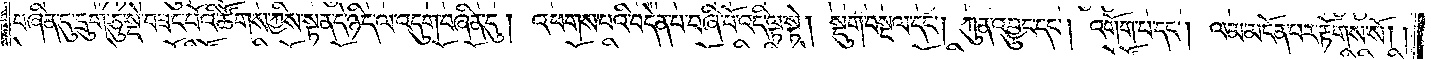བཞིན་དུ་དྲུག་ཅུ་སྡེ་བཟང་པོའི་ཚོགས་ཀྱིས་སྟན་དེ་ཉིད་ལ་འདུག་བཞིན་དུ། འཕགས་པའི་བདེན་པ་བཞི་པོ་འདི་ལྟ་སྟེ། སྡུག་བསྔལ་དང༌། ཀུན་འབྱུང་དང༌། འགོག་པ་དང༌། ལམ་མངོན་པར་རྟོགས་སོ། །
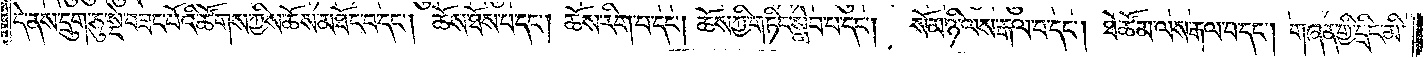དེ་ནས་དྲུག་ཅུ་སྡེ་བཟང་པོའི་ཚོགས་ཀྱིས་ཆོས་མཐོང་བ་དང༌། ཆོས་ཐོས་པ་དང༌། ཆོས་རིག་པ་དང༌། ཆོས་ཀྱི་གཏིང་སླེབ་པ་དང༌།  སོམ་ཉི་ལས་རྒལ་བ་དང༌། ཐེ་ཚོམ་ལས་རྒལ་བ་དང༌། གཞན་གྱི་དྲིང་མི་
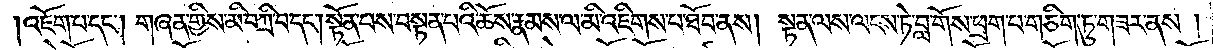འཇོག་པ་དང༌། གཞན་གྱིས་མི་བཀྲི་བ་དང༌། སྟོན་པས་བསྟན་པའི་ཆོས་རྣམས་ལ་མི་འཇིགས་པ་ཐོབ་ནས། སྟན་ལས་ལངས་ཏེ་བླ་གོས་ཕྲག་པ་གཅིག་ཏུ་གཟར་ནས།
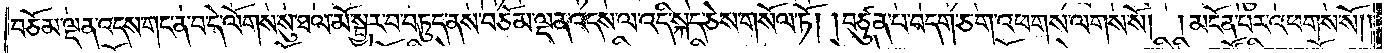བཅོམ་ལྡན་འདས་གང་ན་བ་དེ་ལོགས་སུ་ཐལ་མོ་སྦྱར་བ་བཏུད་ནས་བཅོམ་ལྡན་འདས་ལ་འདི་སྐད་ཅེས་གསོལ་ཏོ། །བཙུན་པ་བདག་ཅག་འཕགས་ལགས་སོ། །མངོན་པར་འཕགས་སོ༎
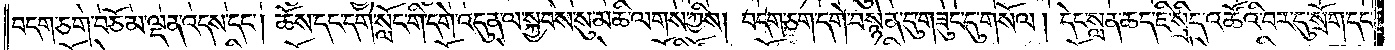བདག་ཅག་བཅོམ་ལྡན་འདས་དང༌། ཆོས་དང་དགེ་སློང་གི་དགེ་འདུན་ལ་སྐྱབས་སུ་མཆི་ལགས་ཀྱིས། བདག་ཅག་དགེ་བསྙེན་དུ་གཟུང་དུ་གསོལ། དེང་སླན་ཆད་ཇི་སྲིད་འཚོའི་བར་དུ་སྲོག་དང་
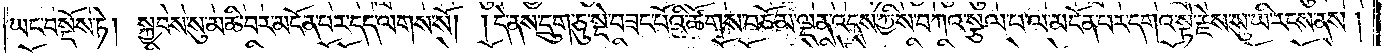ཡང་བསྡོས་ཏེ། སྐྱབས་སུ་མཆི་བར་མངོན་པར་དད་ལགས་སོ། །དེ་ནས་དྲུག་ཅུ་སྡེ་བཟང་པོའི་ཚོགས་བཅོམ་ལྡན་འདས་ཀྱིས་བཀའ་སྩལ་པ་ལ་མངོན་པར་དགའ་སྟེ་རྗེས་སུ་ཡི་རངས་ནས།
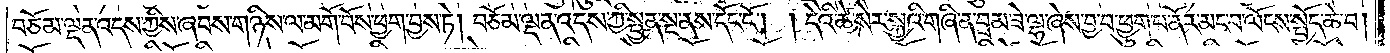བཅོམ་ལྡན་འདས་ཀྱིས་ཞབས་གཉིས་ལ་མགོ་བོས་ཕྱག་བྱས་ཏེ། བཅོམ་ལྡན་འདས་ཀྱི་སྤྱན་སྔ་ནས་དོང་ངོ༌། །དེའི་ཚེ་སེར་སྐྱའི་གཞི་ན་བྲམ་ཟེ་ལྷ་ཞེས་བྱ་བ་ཕྱུག་པ་ནོར་མང་བ་ལོངས་སྤྱོད་ཆེ་བ།
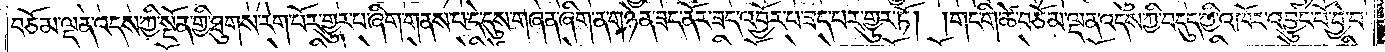བཅོམ་ལྡན་འདས་ཀྱི་སྔོན་གྱི་ཐུགས་རེག་པོར་གྱུར་པ་ཞིག་གནས་པ་དེ་དུས་གཞན་ཞིག་ན་གཉེན་ཟད་ནོར་ཟད་འབྱོར་པ་ཟད་པར་གྱུར་ཏོ། །གང་གི་ཚེ་བཅོམ་ལྡན་འདས་ཀྱི་བདུད་ཀྱི་འཁོར་འབྱུང་པོ་བྱེ་བ་
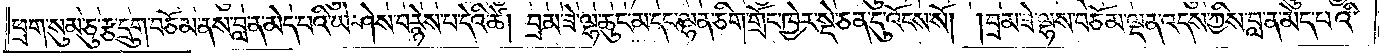ཕྲག་སུམ་ཅུ་རྩ་དྲུག་བཅོམ་ནས་བླ་ན་མེད་པའི་ཡེ་ཤེས་བརྙེས་པ་དེའི་ཚེ། བྲམ་ཟེ་ལྷ་ཆུང་མ་དང་ལྷན་ཅིག་གྲོང་ཁྱེར་སྡེ་ཅན་དུ་འོངས་སོ། །བྲམ་ཟེ་ལྷས་བཅོམ་ལྡན་འདས་ཀྱིས་བླ་ན་མེད་པའི་
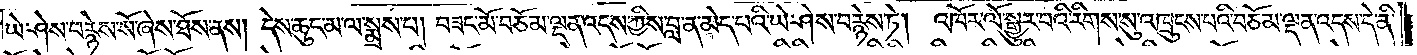ཡེ་ཤེས་བརྙེས་སོ་ཞེས་ཐོས་ནས། དེས་ཆུང་མ་ལ་སྨྲས་པ། བཟང་མོ་བཅོམ་ལྡན་འདས་ཀྱིས་བླ་ན་མེད་པའི་ཡེ་ཤེས་བརྙེས་ཏེ། འཁོར་ལོ་སྒྱུར་བའི་རིགས་སུ་འཁྲུངས་པའི་བཅོམ་ལྡན་འདས་དེ་ནི་
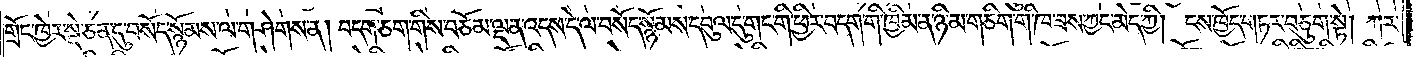གྲོང་ཁྱེར་སྡེ་ཅན་དུ་བསོད་སྙོམས་ལ་གཤེགས་ན། བདག་ཅག་གིས་བཅོམ་ལྡན་འདས་དེ་ལ་བསོད་སྙོམས་དབུལ་དུ་གང་གི་ཕྱིར་བདག་གི་ཁྱིམ་ན་ཉི་མ་གཅིག་གི་ཁ་ཟས་ཀྱང་མེད་ཀྱི། ངས་ཁྱོད་གཏར་བཅུག་སྟེ། ཀར་
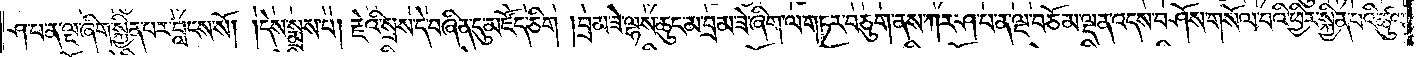ཤ་པ་ན་ལྔ་ཞིག་སྐྱིན་པར་བླངས་སོ། །དེས་སྨྲས་པ། རྗེའི་སྲས་དེ་བཞིན་དུ་མཛོད་ཅིག །བྲམ་ཟེ་ལྷས་ཆུང་མ་བྲམ་ཟེ་ཞིག་ལ་གཏར་བཅུག་ནས་ཀར་ཤ་པ་ན་ལྔ་བཅོམ་ལྡན་འདས་བཤོས་གསོལ་བའི་ཕྱིར་སྐྱིན་པའི་ཚུལ་
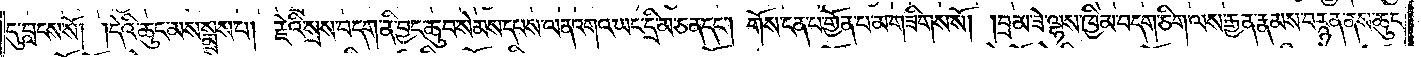དུ་བླངས་སོ། །དེའི་ཆུང་མས་སྨྲས་པ། རྗེའི་སྲས་བདག་ནི་བྱང་ཆུབ་སེམས་དཔས་ལན་འགའ་ཡང་དྲི་མ་ཅན་དང༌། གོས་ངན་པ་གྱོན་པ་མ་གཟིགས་སོ། །བྲམ་ཟེ་ལྷས་ཁྱིམ་བདག་ཅིག་ལས་རྒྱན་རྣམས་བརྙན་ནས་ཆུང་
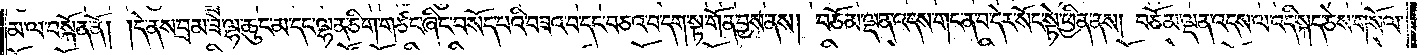མ་ལ་བསྐོན་ནོ། །དེ་ནས་བྲམ་ཟེ་ལྷ་ཆུང་མ་དང་ལྷན་ཅིག་གཙང་ཞིང་བསོད་པའི་བཟའ་བ་དང་བཅའ་བ་དག་སྟ་གོན་བྱས་ནས། བཅོམ་ལྡན་འདས་གང་ན་བ་དེར་སོང་སྟེ་ཕྱིན་ནས། བཅོམ་ལྡན་འདས་ལ་འདི་སྐད་ཅེས་གསོལ་
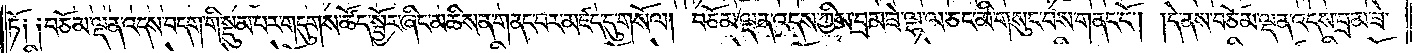ཏོ༑ ༑བཅོམ་ལྡན་འདས་བདག་གི་སྡུམ་པར་གདུགས་ཚོད་སྦྱོར་ཞིང་མཆིས་ན་གནང་བར་མཛད་དུ་གསོལ། བཅོམ་ལྡན་འདས་ཀྱིས་བྲམ་ཟེ་ལྷ་ལ་ཅང་མི་གསུང་བས་གནང་ངོ༌། །དེ་ནས་བཅོམ་ལྡན་འདས་བྲམ་ཟེ་
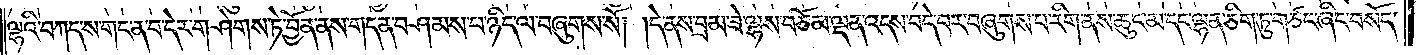ལྷའི་བཀད་ས་གང་ན་བ་དེར་གཤེགས་ཏེ་བྱོན་ནས་གདན་བཤམས་པ་ཉིད་ལ་བཞུགས་སོ། །དེ་ནས་བྲམ་ཟེ་ལྷས་བཅོམ་ལྡན་འདས་བདེ་བར་བཞུགས་པ་རིག་ནས་ཆུང་མ་དང་ལྷན་ཅིག་ཏུ་གཙང་ཞིང་བསོད་
